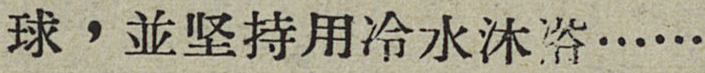球，並坚持用冷水沐浴……
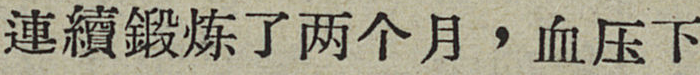連續鍛炼了两个月，血压下
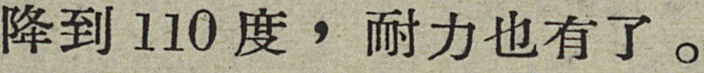降到110度，耐力也有了。
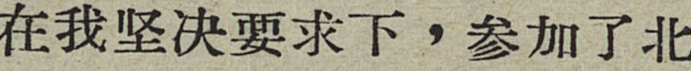在我坚决要求下，参加了北
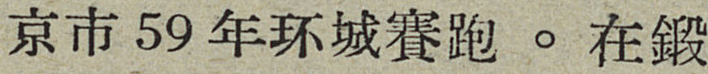京市59年环城賽跑。在鍛
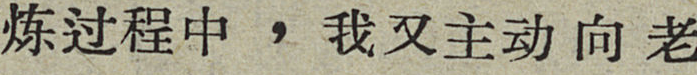炼过程中，我又主动向老
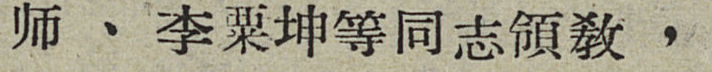师、李粟坤等同志領敎，
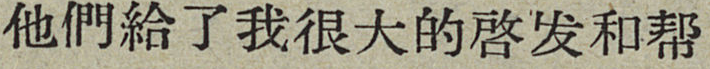他們給了我很大的啓发和帮
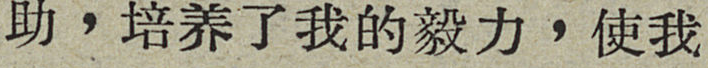助，培养了我的毅力，使我
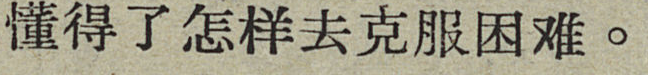懂得了怎样去克服困难。
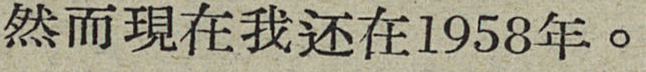然而現在我还在1958年。
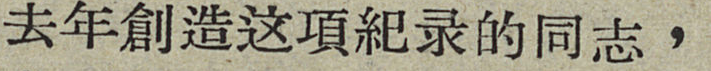去年創造这項紀录的同志，
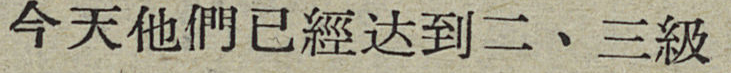今天他們已經达到二、三級
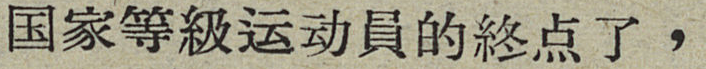国家等級运动員的終点了，
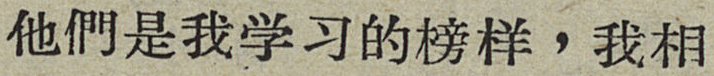他們是我学习的榜样，我相
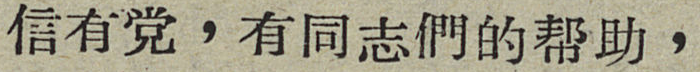信有党，有同志們的帮助，
